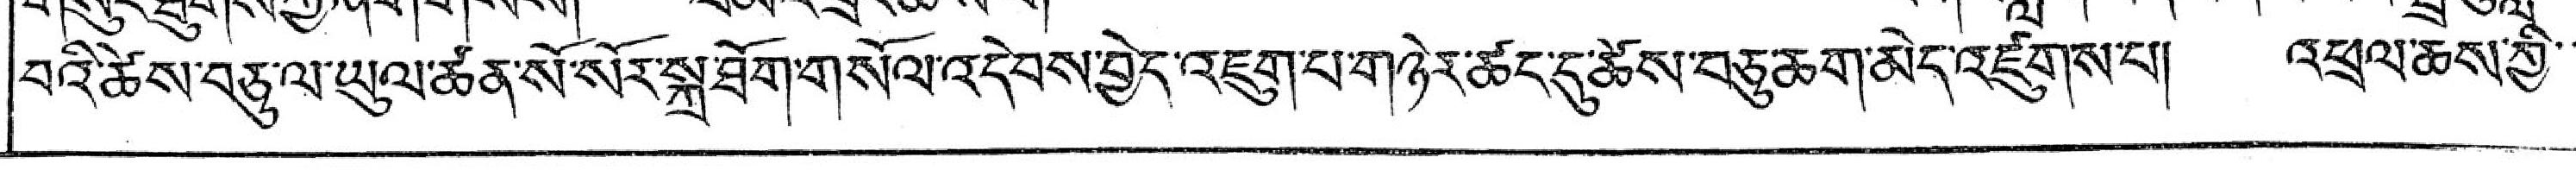བའི་ཚེས་བཅུ་ལ་ཡུལ་ཚན་སོ་སོར་སྐྲ་ཐོག་གསོལ་འདེབས་བྱེད་འཇུག་པ་གཉེར་ཚང་དུ་ཚེས་བཅུ་ཆག་མེད་འཛུགས་པ། འཕྲལ་ཆས་ཀྱི་་
